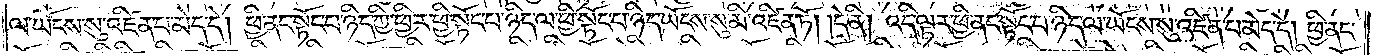ལ་ཡོངས་སུ་འཛིན་པ་མེད་དེ། ཕྱི་ནང་སྟོང་པ་ཉིད་ཀྱི་ཕྱིར་ཕྱི་སྟོང་པ་ཉིད་ལ་ཕྱི་སྟོང་པ་ཉིད་ཡོངས་སུ་མི་འཛིན་ཏོ། །དེ་ནི། འདི་ལྟར་ཕྱི་ནང་སྟོང་པ་ཉིད་ལ་ཡོངས་སུ་འཛིན་པ་མེད་དེ། ཕྱི་ནང་
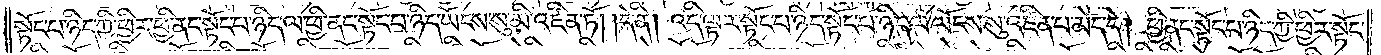སྟོང་པ་ཉིད་ཀྱི་ཕྱིར་ཕྱི་ནང་སྟོང་པ་ཉིད་ལ་ཕྱི་ནང་སྟོང་པ་ཉིད་ཡོངས་སུ་མི་འཛིན་ཏོ། །དེ་ནི། འདི་ལྟར་སྟོང་པ་ཉིད་སྟོང་པ་ཉིད་ལ་ཡོངས་སུ་འཛིན་པ་མེད་དེ། ཕྱི་ནང་སྟོང་པ་ཉིད་ཀྱི་ཕྱིར་སྟོང་
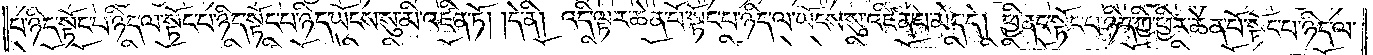པ་ཉིད་སྟོང་པ་ཉིད་ལ་སྟོང་པ་ཉིད་སྟོང་པ་ཉིད་ཡོངས་སུ་མི་འཛིན་ཏོ། །དེ་ནི། འདི་ལྟར་ཆེན་པོ་སྟོང་པ་ཉིད་ལ་ཡོངས་སུ་འཛིན་པ་མེད་དེ། ཕྱི་ནང་སྟོང་པ་ཉིད་ཀྱི་ཕྱིར་ཆེན་པོ་སྟོང་པ་ཉིད་ལ་
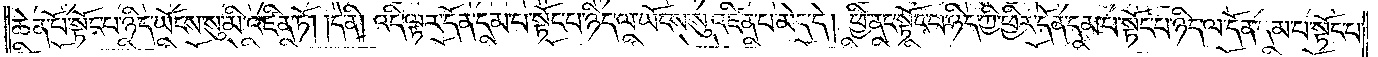ཆེན་པོ་སྟོང་པ་ཉིད་ཡོངས་སུ་མི་འཛིན་ཏོ། །དེ་ནི། འདི་ལྟར་དོན་དམ་པ་སྟོང་པ་ཉིད་ལ་ཡོངས་སུ་འཛིན་པ་མེད་དེ། ཕྱི་ནང་སྟོང་པ་ཉིད་ཀྱི་ཕྱིར་དོན་དམ་པ་སྟོང་པ་ཉིད་ལ་དོན་དམ་པ་སྟོང་པ་
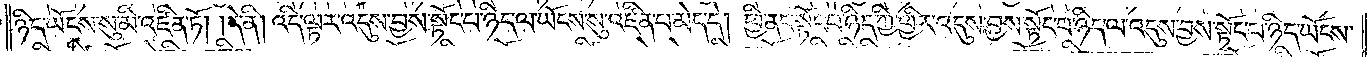ཉིད་ཡོངས་སུ་མི་འཛིན་ཏོ། །དེ་ནི། འདི་ལྟར་འདུས་བྱས་སྟོང་པ་ཉིད་ལ་ཡོངས་སུ་འཛིན་པ་མེད་དེ། ཕྱི་ནང་སྟོང་པ་ཉིད་ཀྱི་ཕྱིར་འདུས་བྱས་སྟོང་པ་ཉིད་ལ་འདུས་བྱས་སྟོང་པ་ཉིད་ཡོངས་
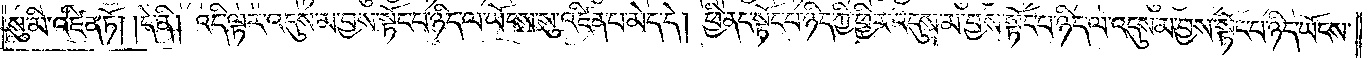སུ་མི་འཛིན་ཏོ། །དེ་ནི། འདི་ལྟར་འདུས་མ་བྱས་སྟོང་པ་ཉིད་ལ་ཡོངས་སུ་འཛིན་པ་མེད་དེ། ཕྱི་ནང་སྟོང་པ་ཉིད་ཀྱི་ཕྱིར་འདུས་མ་བྱས་སྟོང་པ་ཉིད་ལ་འདུས་མ་བྱས་སྟོང་པ་ཉིད་ཡོངས་
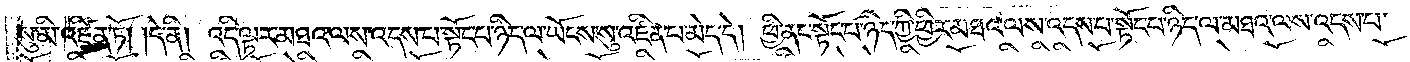སུ་མི་འཛིན་ཏོ། །དེ་ནི། འདི་ལྟར་མཐའ་ལས་འདས་པ་སྟོང་པ་ཉིད་ལ་ཡོངས་སུ་འཛིན་པ་མེད་དེ། ཕྱི་ནང་སྟོང་པ་ཉིད་ཀྱི་ཕྱིར་མཐའ་ལས་འདས་པ་སྟོང་པ་ཉིད་ལ་མཐའ་ལས་འདས་པ་
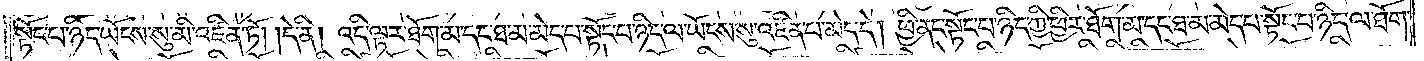སྟོང་པ་ཉིད་ཡོངས་སུ་མི་འཛིན་ཏོ། །དེ་ནི། འདི་ལྟར་ཐོག་མ་དང་ཐ་མ་མེད་པ་སྟོང་པ་ཉིད་ལ་ཡོངས་སུ་འཛིན་པ་མེད་དེ། ཕྱི་ནང་སྟོང་པ་ཉིད་ཀྱི་ཕྱིར་ཐོག་མ་དང་ཐ་མ་མེད་པ་སྟོང་པ་ཉིད་ལ་ཐོག་
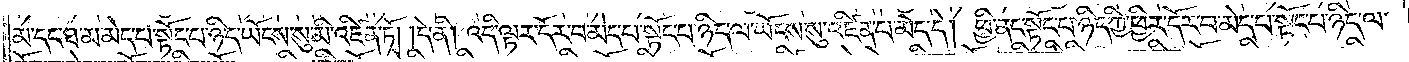མ་དང་ཐ་མ་མེད་པ་སྟོང་པ་ཉིད་ཡོངས་སུ་མི་འཛིན་ཏོ། །དེ་ནི། འདི་ལྟར་དོར་བ་མེད་པ་སྟོང་པ་ཉིད་ལ་ཡོངས་སུ་འཛིན་པ་མེད་དེ། ཕྱི་ནང་སྟོང་པ་ཉིད་ཀྱི་ཕྱིར་དོར་བ་མེད་པ་སྟོང་པ་ཉིད་ལ་
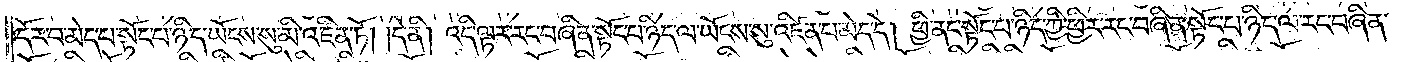དོར་བ་མེད་པ་སྟོང་པ་ཉིད་ཡོངས་སུ་མི་འཛིན་ཏོ། །དེ་ནི། འདི་ལྟར་རང་བཞིན་སྟོང་པ་ཉིད་ལ་ཡོངས་སུ་འཛིན་པ་མེད་དེ། ཕྱི་ནང་སྟོང་པ་ཉིད་ཀྱི་ཕྱིར་རང་བཞིན་སྟོང་པ་ཉིད་ལ་རང་བཞིན་
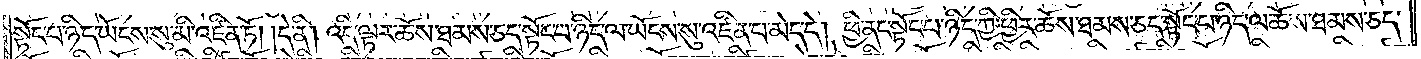སྟོང་པ་ཉིད་ཡོངས་སུ་མི་འཛིན་ཏོ། །དེ་ནི། འདི་ལྟར་ཆོས་ཐམས་ཅད་སྟོང་པ་ཉིད་ལ་ཡོངས་སུ་འཛིན་པ་མེད་དེ། ཕྱི་ནང་སྟོང་པ་ཉིད་ཀྱི་ཕྱིར་ཆོས་ཐམས་ཅད་སྟོང་པ་ཉིད་ལ་ཆོས་ཐམས་ཅད་
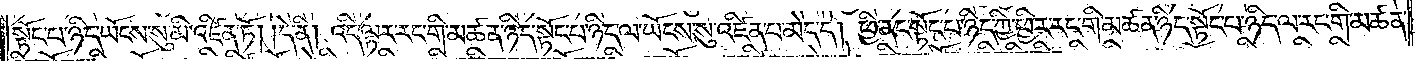སྟོང་པ་ཉིད་ཡོངས་སུ་མི་འཛིན་ཏོ། །དེ་ནི། འདི་ལྟར་རང་གི་མཚན་ཉིད་སྟོང་པ་ཉིད་ལ་ཡོངས་སུ་འཛིན་པ་མེད་དེ། ཕྱི་ནང་སྟོང་པ་ཉིད་ཀྱི་ཕྱིར་རང་གི་མཚན་
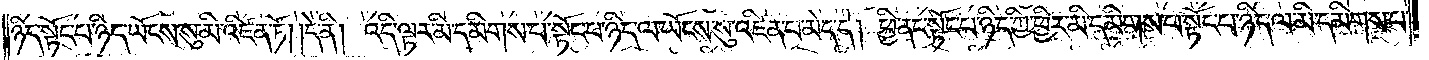ཉིད་སྟོང་པ་ཉིད་ཡོངས་སུ་མི་འཛིན་ཏོ། །དེ་ནི། འདི་ལྟར་མི་དམིགས་པ་སྟོང་པ་ཉིད་ལ་ཡོངས་སུ་འཛིན་པ་མེད་དེ། ཕྱི་ནང་སྟོང་པ་ཉིད་ཀྱི་ཕྱིར་མི་དམིགས་པ་སྟོང་པ་ཉིད་ལ་མི་དམིགས་པ་
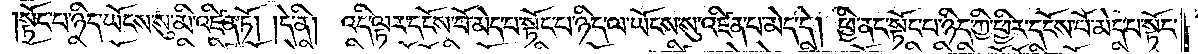སྟོང་པ་ཉིད་ཡོངས་སུ་མི་འཛིན་ཏོ། །དེ་ནི། འདི་ལྟར་དངོས་པོ་མེད་པ་སྟོང་པ་ཉིད་ལ་ཡོངས་སུ་འཛིན་པ་མེད་དེ། ཕྱི་ནང་སྟོང་པ་ཉིད་ཀྱི་ཕྱིར་དངོས་པོ་མེད་པ་སྟོང་
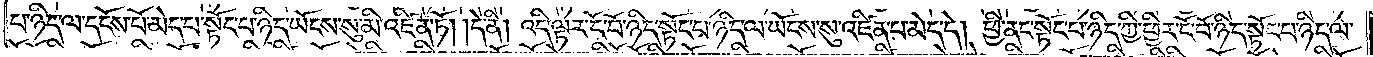པ་ཉིད་ལ་དངོས་པོ་མེད་པ་སྟོང་པ་ཉིད་ཡོངས་སུ་མི་འཛིན་ཏོ། །དེ་ནི། འདི་ལྟར་ངོ་བོ་ཉིད་སྟོང་པ་ཉིད་ལ་ཡོངས་སུ་འཛིན་པ་མེད་དེ། ཕྱི་ནང་སྟོང་པ་ཉིད་ཀྱི་ཕྱིར་ངོ་བོ་ཉིད་སྟོང་པ་ཉིད་ལ་
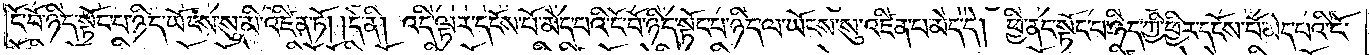ངོ་བོ་ཉིད་སྟོང་པ་ཉིད་ཡོངས་སུ་མི་འཛིན་ཏོ། །དེ་ནི། འདི་ལྟར་དངོས་པོ་མེད་པའི་ངོ་བོ་ཉིད་སྟོང་པ་ཉིད་ལ་ཡོངས་སུ་འཛིན་པ་མེད་དེ། ཕྱི་ནང་སྟོང་པ་ཉིད་ཀྱི་ཕྱིར་དངོས་པོ་མེད་པའི་ངོ་
